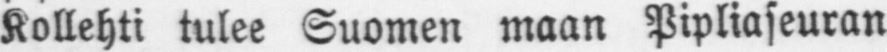Kollehti tulee Suomen maan Pipliaseuran
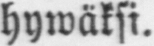hywäksi.
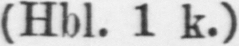(Hbl. 1 k.)
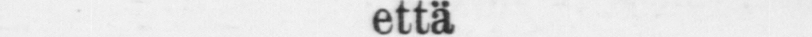ILMOITETAAN
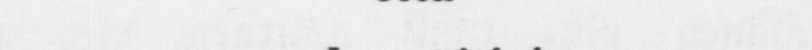että
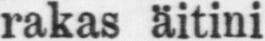rakas ä itini
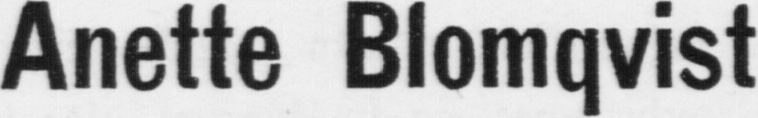Anette Blomqvist
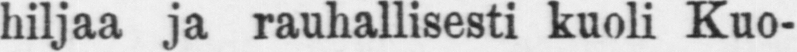hiljaa ja rauhallisesti kuoli Kuo-
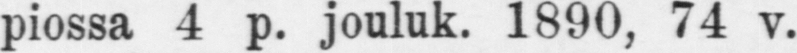piossa 4 p. jouluk. 1890, 74 v.
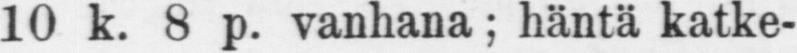10 k. 8 p. vanhana; häntä katke-
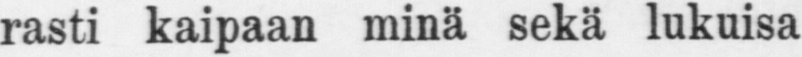rasti kaipaan minä sekä lukuisa
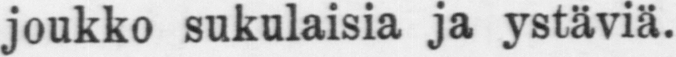joukko sukulaisia ja ystäviä.
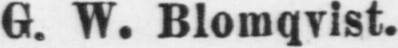G. W. Blomqvist.
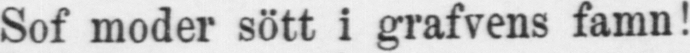Sof moder sött i grafvens famn!
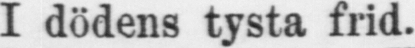I dödens tysta frid.
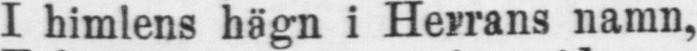I himlens h ä gn i Herrans namn,
